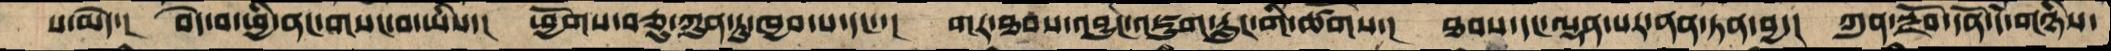པ་མེད་།  བདེ་བ་ཕྱི་ནང་གསང་བ་ཡིས་།  ཕྱོགས་བཅུ་ཀུན་ཏུ་ཁྱབ་པ་དང་་།  གར་ཐབས་འབྱུང་འཇུག་རླུང་གི་ཚོགས་།  ཐབས་དང་ལྡན་པར་ནན་ཏན་བྱ་།  ཀུན་སྫོབ་དོན་དཾ་གཉིས་
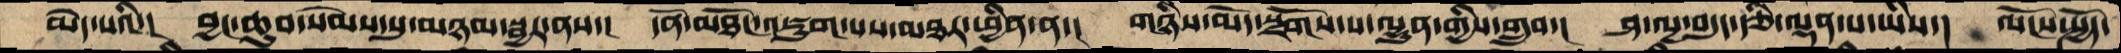མེད་པའི་།  བྱང་ཆུབ་སེམས་སུ་མཉམ་སྦྱར་ནས་།  དོན་མཐོང་འཇུག་པས་མཐར་ཕྱིར་ན་།  གཉིས་མེད་སྫོགས་པ་ལྷུན་གྱིས་གྲུབ་།  ཤ་ལྔ་བདུད་རྩི་ལྡན་པ་ཡིས་།  ལོངས་སྤྱོད་
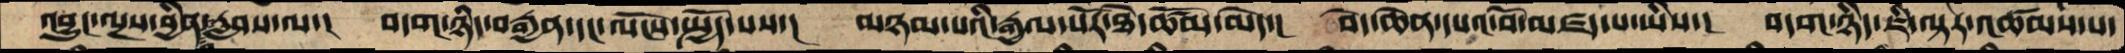འབྱུང་ལྔས་བྱིན་རླབས་ལ་།  བདག་ཉིད་བརྒྱན་དང་ལོངས་སྤྱོད་པས་།  མཉམ་པའི་རྒྱལ་པོར་ཐེ་ཚོམ་མེད་།  བདེ་ཆེན་དཔའ་བོ་མཛད་པ་ཡིས་།  བདག་ཉིད་ཇི་ལྟར་འཚམས་པ་
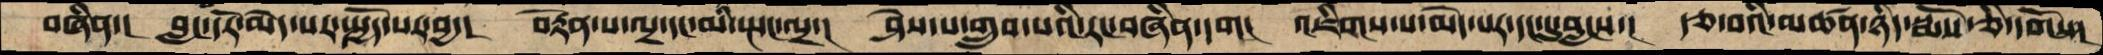བཞིན་།  བླང་དོར་མེད་པར་སྤྱོད་པར་བྱ་།  བརྟེན་པ་ལྔ་དང་མི་སྤང་ལྔ་།  ཤེས་པ་གྲུབ་པའི་རང་བཞིན་དག།  འཇིག་པ་མེད་པར་དང་དུ་བླངས་།  རྩ་བའི་མཚན་ཉིད་སྨོས་ཅི་དགོས་།
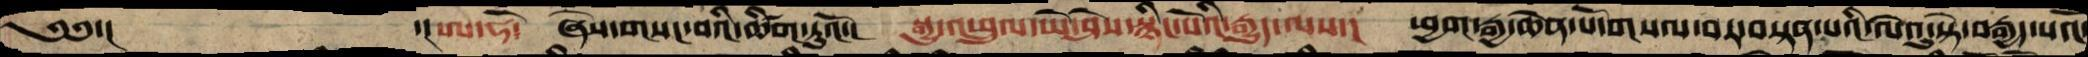༄༅་།        ་།ཨ་ཧོ་  ཞེས་གསང་བའི་ཚིག་ཏུའོ་།  སྒྱུ་འཕྲུལ་ཡེ་ཤེས་སྙིང་པོའི་རྒྱུད་ལས་།  ཕྱག་རྒྱ་ཆེན་པོ་གསལ་བར་བསྟན་པའི་ལེའུ་སྟེ་བརྒྱད་པའོ་
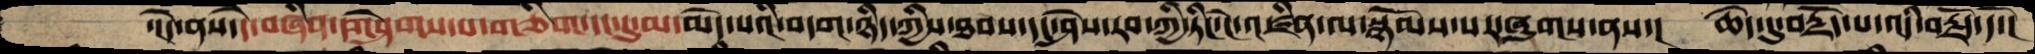་།དེ་ནས་དེ་བཞིན་གཤེགས་པ་གཅིག་དང་དུ་མ་མེད་པའི་བདག་ཉིད་ཐབས་དང་ཤེས་རབ་ཀྱི་ཏིང་ངེ་འཛིན་ལ་སྙོམས་པར་ཞུགས་ནས་།  ཆེད་དུ་བརྗོད་པ་འདི་བརྗོད་དོ་།
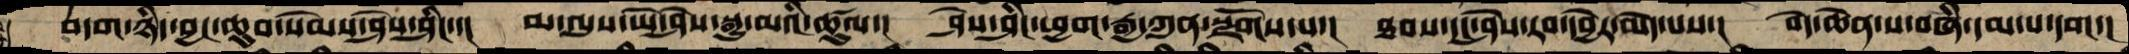བདག་ཉིད་བྱང་ཆུབ་སེམས་ཤེས་ཤིང་་།  མ་ལུས་ཡེ་ཤེས་སྒྱུ་མའི་ཚུལ་།  ཤེས་ཤིང་ཕྱག་རྒྱ་ཀུན་སྫོགས་པ་།  ཐབས་དང་ཤེས་རབ་དབྱེར་མེད་པས་།  བདེ་ཆེན་ས་བཞི་དམ་པ་དག་།
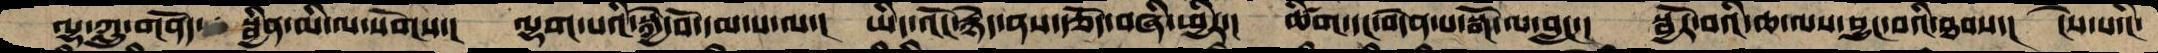ལྷ་ཀླུ་གནོད་  སྦྱིན་མི་ལ་སོགས་།  ལྷག་པའི་སྐྱེ་བོ་དམ་པ་ལ་།  ཡིད་འོང་རྙེད་ནས་རྩོད་བཞི་ཕྱིར་།  ཚིག་དང་བདེན་པ་སྒོ་ལ་བླང་།  སྦྱོར་བའི་ཆ་ལས་བྱུང་བའི་ཐབས་།  ངེས་པའི་
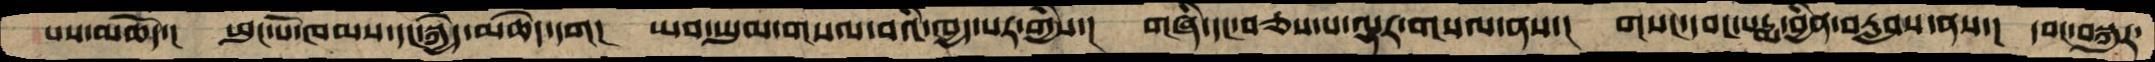པས་མཆོད་།  ཕུང་པོ་ཁམས་དང་སྐྱེད་མཆེད་དག།  ཡབ་ཡུམ་གསལ་བའི་ཁྱད་པར་གྱིས་།  གཞི་དང་བཅས་པ་ལྷར་གསལ་ནས་།  གསང་དབང་པདྨ་བྱིན་བརླབས་ནས་།  དབང་བསྐུར་
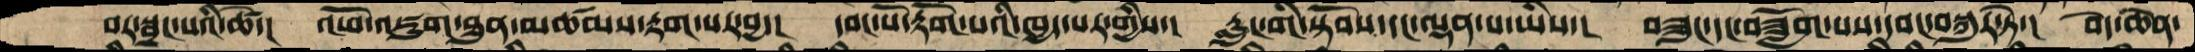བར་སྦྱང་པའི་ཚེ་།  འཕོ་འཇུག་ཐུན་མཚམས་རྟག་པར་བྱ་།  དབང་པོ་རྟོག་པའི་ཁྱད་པར་གྱིས་།  རླུང་གི་སྟོབས་དང་ལྡན་པ་ཡིས་།  བཟུང་དང་བཟློག་པས་དབང་བསྐུར་ཏེ་།  བདེ་ཆེན་
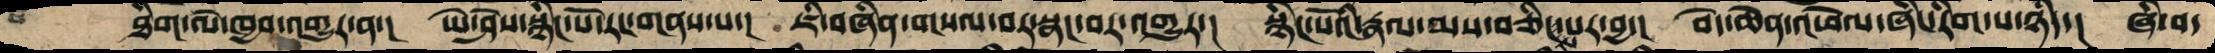ཐིག་ལེ་ཁྱབ་འགྱུར་ན་། ཡེ་ཤེས་སྙིང་པོ་རང་གནས་པ་། ཇི་བཞིན་གསལ་བར་སྣང་བར་འགྱུར་། སྙིང་པོའི་རྣལ་མས་བཅིངས་པར་བྱ་། བདེ་ཆེན་འཕེལ་ཞིང་རིག་པ་ཉིད་། ཞི་བ་
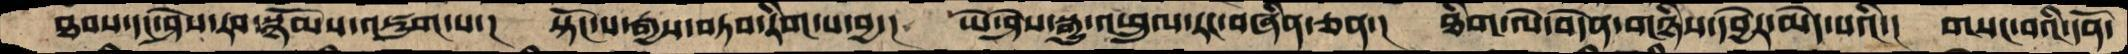ཐབས་དང་ཤེས་རབ་སྙོམས་འཇུག་པ་།  སྟོང་པ་རྒྱས་བཏབ་རིག་པ་བྱ་།  ཡེ་ཤེས་སྒྱུ་འཕྲུལ་རང་བཞིན་ཅན་།  ཐིག་ལེ་བདེན་གཉིས་དབྱེར་མེད་པའི་།  གསང་བའི་དོན་
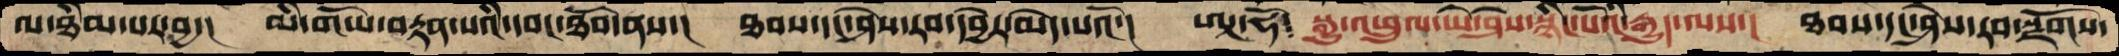ལ་ཐིམ་པར་བྱ་།  མི་གཡོ་བརྟན་པའི་དབང་ཐོབ་ནས་།  ཐབས་དང་ཤེས་རབ་དབྱེར་མེད་པའོ་།  ཨཱ་ཧོ༴  སྒྱུ་འཕྲུལ་ཡེ་ཤེས་སྙིང་པོའི་རྒྱུད་ལས་།  ཐབས་དང་ཤེས་རབ་སྫོགས་
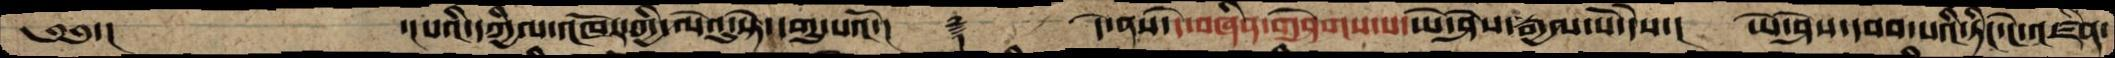༄༅་།      ་།པའི་དཀྱིལ་འཁོར་གྱི་ལེའུ་སྟེ་དགུ་པའོ་།   ࿑   དེ་ནས་དེ་བཞིན་གཤེགས་པ་ཡེ་ཤེས་རྒྱལ་པོ་དེས་།  ཡེ་ཤེས་དབབ་པའི་ཏིང་ངེ་འཛིན་
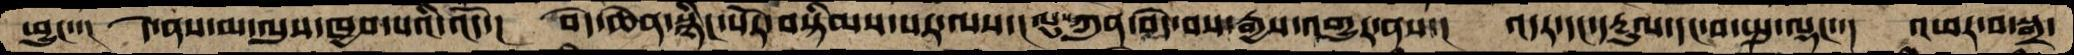ཕྱུང་་།  དེ་ནས་མ་ལུས་ཁྱབ་པའི་འོད་།  བདེ་ཆེན་སྙིང་པོར་བསྟིམས་པར་ལས་།  ལུསཀུན་བདེ་བས་རྒྱས་འགྱུར་ནས་།  འདར་དང་དརྔུལ་དང་བ་སྤུ་ལྡང་་།  འཕར་བ་སྒྲ་
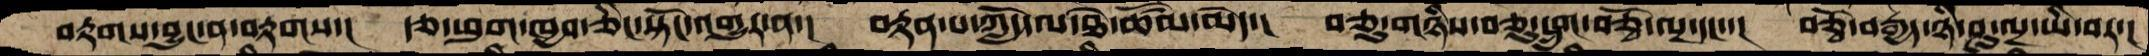བརྟགས་བྱུང་ན་བརྟགས་།  རྩ་ཕུག་ཁྱབ་ཅིང་སྟོང་འགྱུར་ན་།  བརྟན་པ་ཀློད་ལ་ཐེ་ཚོམ་མེད་།  བཅུ་གཉིས་བཅུ་དྲུག་བཅྭོ་ལྔ་དང་་།  བཅྭོ་བརྒྱད་ཉི་ཤུ་ལྔ་ཡི་བར་།
